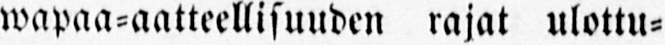wapaa-aatteellisuuden rajat ulottu-
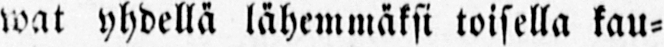wat yhdellä lähemmäksi toisella kau-
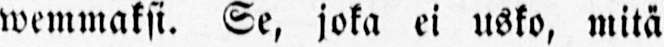wemmaksi. Se, joka ei usko, mitä
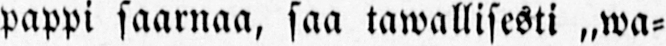pappi saarnaa, saa tawalliseSti „wa-
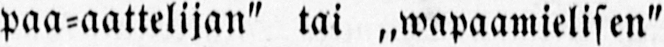paa-aattelijan" tai ..wapaamielisen"
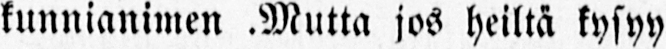kunnianimen .Mutta jos heiltä kysyy
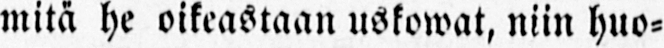mitä he oikeastaan uskoivat, niin huo-
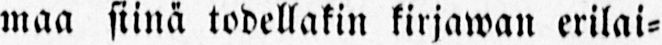maa siinä todellakin kirjawan erilai-
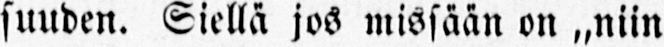suuden. Siellä jos missään on „niin
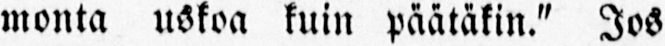monta uskoa kuin päätäkin." Jos
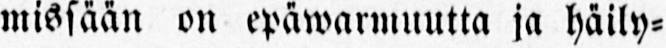missään on epäwarmuutta ja häily-
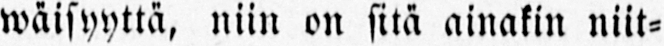wäisyyttä, niin on sitä ainakin niit-
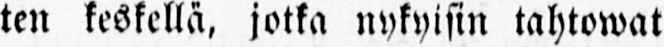ten keskellä, jotka nykyisin tahtoivat
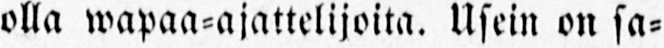olla wapaa-ajattelijoita. Usein on sa-
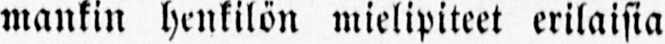mankin henkilön mielipiteet erilaisia
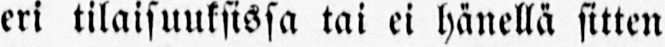eri tilaisuuksissa tai ei hänellä sitten
